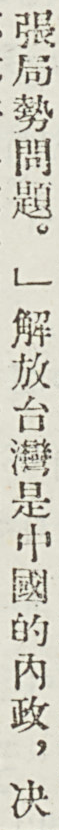張局勢問題。」解放台灣是中國的內政，決
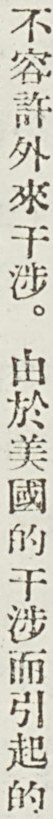不容許外來干涉。由於美國的干涉而引起的
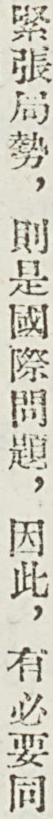緊張局勢，則是國際問題，因此，有必要同
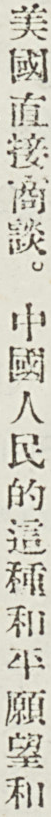美國直接商談。中國人民的這種和平願望和
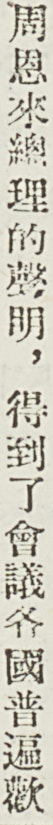周恩來總理的聲明，得到了會議各國普遍歡
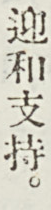迎和支持。
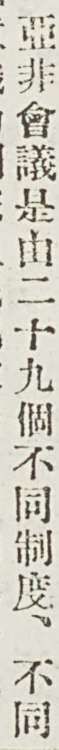亞非會議是由二十九個不同制度、不同
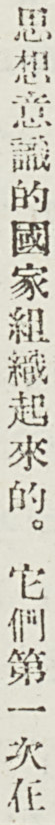思想意識的國家組織起來的。他們第一次在
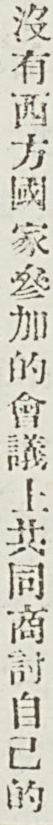沒有西方國家參加的會議上共同商討自己的
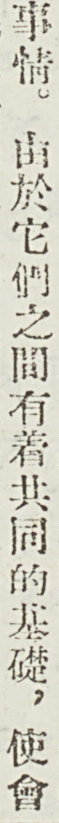事情。由於它們之間有着共同的基礎，使會
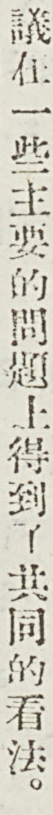議在一些主要的問題上得到了共同的看法。
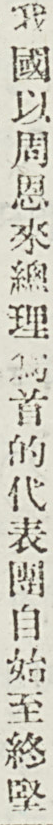我國以周恩來總理爲首的代表團自始至終堅
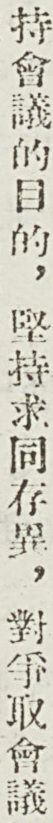持會議的目的，堅持求同存異，對爭取會議
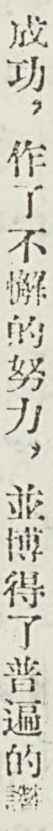成功，作了不懈的努力，並博得了普遍的讚
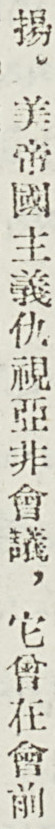揚。美帝國主義仇視亞非會議，它曾在會前
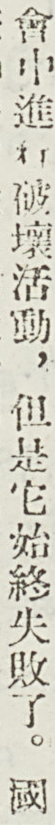會中進行破壞活動，但是它始終失敗了。國
